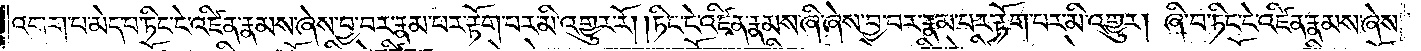འགག་པ་མེད་པ་ཏིང་ངེ་འཛིན་རྣམས་ཞེས་བྱ་བར་རྣམ་པར་རྟོག་པར་མི་འགྱུར་རོ། །ཏིང་ངེ་འཛིན་རྣམས་ཞི་ཞེས་བྱ་བར་རྣམ་པར་རྟོག་པར་མི་འགྱུར། ཞི་བ་ཏིང་ངེ་འཛིན་རྣམས་ཞེས་
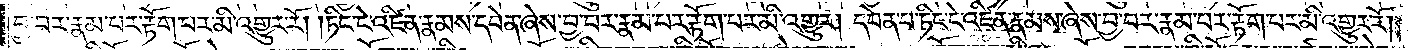བྱ་བར་རྣམ་པར་རྟོག་པར་མི་འགྱུར་རོ། །ཏིང་ངེ་འཛིན་རྣམས་དབེན་ཞེས་བྱ་བར་རྣམ་པར་རྟོག་པར་མི་འགྱུར། དབེན་པ་ཏིང་ངེ་འཛིན་རྣམས་ཞེས་བྱ་བར་རྣམ་པར་རྟོག་པར་མི་འགྱུར་རོ། །
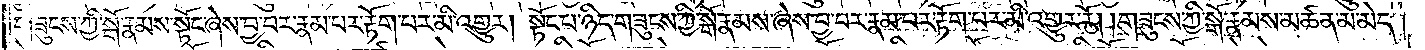གཟུངས་ཀྱི་སྒོ་རྣམས་སྟོང་ཞེས་བྱ་བར་རྣམ་པར་རྟོག་པར་མི་འགྱུར། སྟོང་པ་ཉིད་གཟུངས་ཀྱི་སྒོ་རྣམས་ཞེས་བྱ་བར་རྣམ་པར་རྟོག་པར་མི་འགྱུར་རོ། །གཟུངས་ཀྱི་སྒོ་རྣམས་མཚན་མ་མེད་
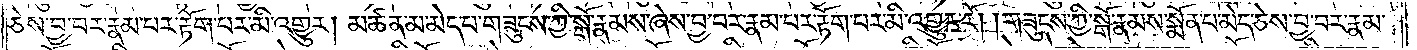ཅེས་བྱ་བར་རྣམ་པར་རྟོག་པར་མི་འགྱུར། མཚན་མ་མེད་པ་གཟུངས་ཀྱི་སྒོ་རྣམས་ཞེས་བྱ་པར་རྣམ་པར་རྟོག་པར་མི་འགྱུར་རོ། །གཟུངས་ཀྱི་སྒོ་རྣམས་སྨོན་པ་མེད་ཅེས་བྱ་བར་རྣམ་
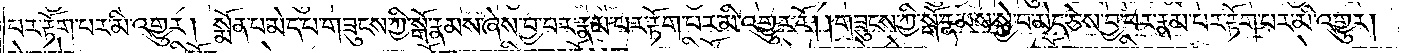པར་རྟོག་པར་མི་འགྱུར། སྨོན་པ་མེད་པ་གཟུངས་ཀྱི་སྒོ་རྣམས་ཞེས་བྱ་བར་རྣམ་པར་རྟོག་པར་མི་འགྱུར་རོ། །གཟུངས་ཀྱི་སྒོ་རྣམས་སྐྱེ་བ་མེད་ཅེས་བྱ་བར་རྣམ་པར་རྟོག་པར་མི་འགྱུར།
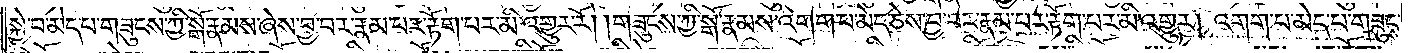སྐྱེ་བ་མེད་པ་གཟུངས་ཀྱི་སྒོ་རྣམས་ཞེས་བྱ་བར་རྣམ་པར་རྟོག་པར་མི་འགྱུར་རོ། །གཟུངས་ཀྱི་སྒོ་རྣམས་འགག་པ་མེད་ཅེས་བྱ་བར་རྣམ་པར་རྟོག་པར་མི་འགྱུར། འགག་པ་མེད་པ་གཟུངས་
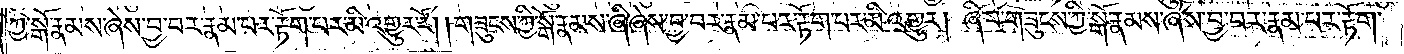ཀྱི་སྒོ་རྣམས་ཞེས་བྱ་བར་རྣམ་པར་རྟོག་པར་མི་འགྱུར་རོ། །གཟུངས་ཀྱི་སྒོ་རྣམས་ཞི་ཞེས་བྱ་བར་རྣམ་པར་རྟོག་པར་མི་འགྱུར། ཞི་བ་གཟུངས་ཀྱི་སྒོ་རྣམས་ཞེས་བྱ་བར་རྣམ་པར་རྟོག་
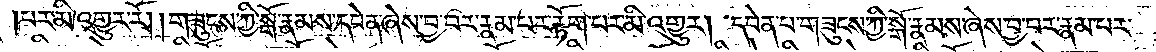པར་མི་འགྱུར་རོ། །གཟུངས་ཀྱི་སྒོ་རྣམས་དབེན་ཞེས་བྱ་བར་རྣམ་པར་རྟོག་པར་མི་འགྱུར། དབེན་པ་གཟུངས་ཀྱི་སྒོ་རྣམས་ཞེས་བྱ་བར་རྣམ་པར་
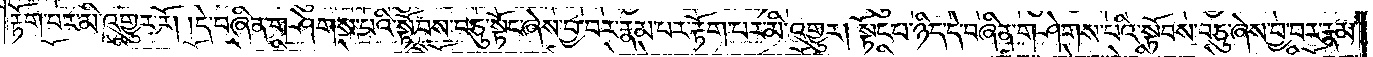རྟོག་པར་མི་འགྱུར་རོ། །དེ་བཞིན་གཤེགས་པའི་སྟོབས་བཅུ་སྟོང་ཞེས་བྱ་བར་རྣམ་པར་རྟོག་པར་མི་འགྱུར། སྟོང་པ་ཉིད་དེ་བཞིན་གཤེགས་པའི་སྟོབས་བཅུ་ཞེས་བྱ་བར་རྣམ་
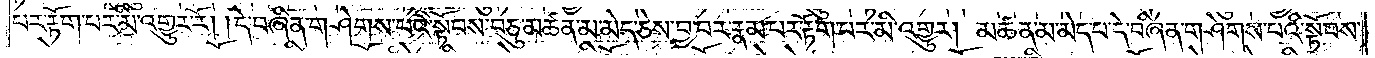པར་རྟོག་པར་མི་འགྱུར་རོ། །དེ་བཞིན་གཤེགས་པའི་སྟོབས་བཅུ་མཚན་མ་མེད་ཅེས་བྱ་བར་རྣམ་པར་རྟོག་པར་མི་འགྱུར། མཚན་མ་མེད་པ་དེ་བཞིན་གཤེགས་པའི་སྟོབས་
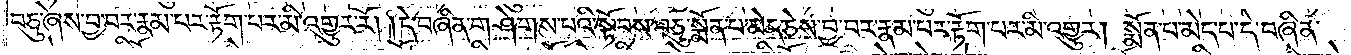བཅུ་ཞེས་བྱ་བར་རྣམ་པར་རྟོག་པར་མི་འགྱུར་རོ། །དེ་བཞིན་གཤེགས་པའི་སྟོབས་བཅུ་སྨོན་པ་མེད་ཅེས་བྱ་བར་རྣམ་པར་རྟོག་པར་མི་འགྱུར། སྨོན་པ་མེད་པ་དེ་བཞིན་
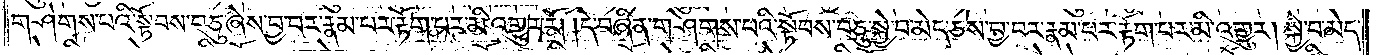གཤེགས་པའི་སྟོབས་བཅུ་ཞེས་བྱ་བར་རྣམ་པར་རྟོག་པར་མི་འགྱུར་རོ། །དེ་བཞིན་གཤེགས་པའི་སྟོབས་བཅུ་སྐྱེ་བ་མེད་ཅེས་བྱ་བར་རྣམ་པར་རྟོག་པར་མི་འགྱུར། སྐྱེ་བ་མེད་
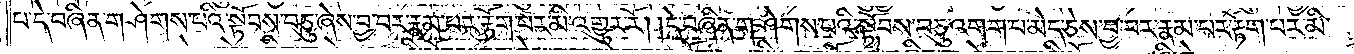པ་དེ་བཞིན་གཤེགས་པའི་སྟོབས་བཅུ་ཞེས་བྱ་བར་རྣམ་པར་རྟོག་པར་མི་འགྱུར་རོ། །དེ་བཞིན་གཤེགས་པའི་སྟོབས་བཅུ་འགག་པ་མེད་ཅེས་བྱ་བར་རྣམ་པར་རྟོག་པར་མི་
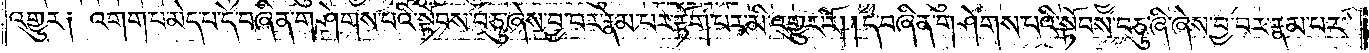འགྱུར༑ འགག་པ་མེད་པ་དེ་བཞིན་གཤེགས་པའི་སྟོབས་བཅུ་ཞེས་བྱ་བར་རྣམ་པར་རྟོག་པར་མི་འགྱུར་རོ། །དེ་བཞིན་གཤེགས་པའི་སྟོབས་བཅུ་ཞི་ཞེས་བྱ་བར་རྣམ་པར་
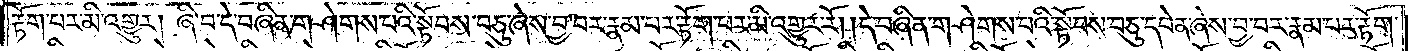རྟོག་པར་མི་འགྱུར། ཞི་བ་དེ་བཞིན་གཤེགས་པའི་སྟོབས་བཅུ་ཞེས་བྱ་བར་རྣམ་པར་རྟོག་པར་མི་འགྱུར་རོ། །དེ་བཞིན་གཤེགས་པའི་སྟོབས་བཅུ་དབེན་ཞེས་བྱ་བར་རྣམ་པར་རྟོག་
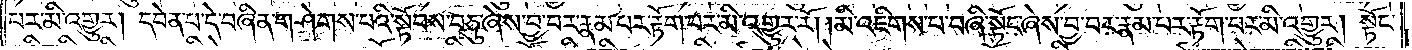པར་མི་འགྱུར། དབེན་པ་དེ་བཞིན་གཤེགས་པའི་སྟོབས་བཅུ་ཞེས་བྱ་བར་རྣམ་པར་རྟོག་པར་མི་འགྱུར་རོ། །མི་འཇིགས་བ་བཞི་སྟོང་ཞེས་བྱ་བར་རྣམ་པར་རྟོག་པར་མི་འགྱུར། སྟོང་
